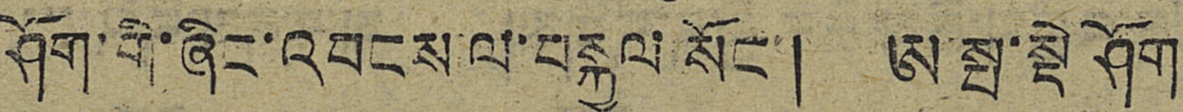ཤོག་གི་ཞིང་འབངས་ལ་བསྐྱལ སོང་། ཨ་སྤ་སྡེ ཤོག་
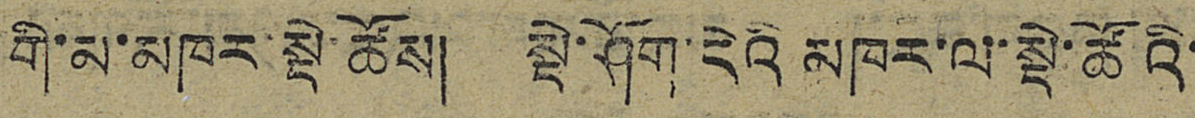གི་མ་མཁར་སྡེ་ཚོས། སྡེ་ཤོག་དེའི་མཁར་ལ་སྡེ་ཚོའི་
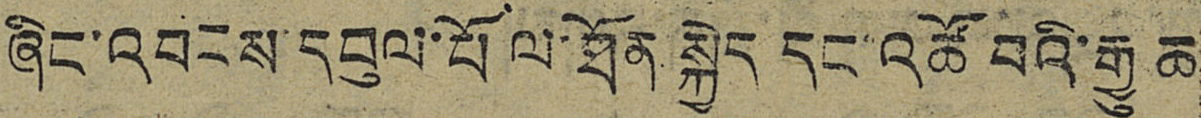ཞིང་འབངས་དབུལ་པོ ལ་ཐོན་སྐྱེད དང་འཚོ་བའི་རྒྱུ ཆ་
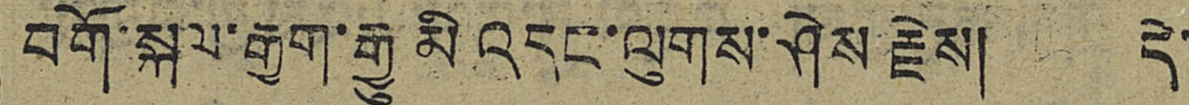བགོ་སྐལ་རྒྱག་རྒྱུ མི འདང་ལུགས་ཤེས རྗེས། དེ་
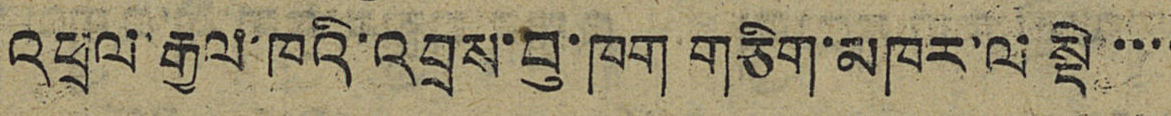འཕྲལ་རྒྱལ་ཁའི་འབྲས་བུ་ཁག གཅིག་མཁར་ལ་སྡེ་་་་
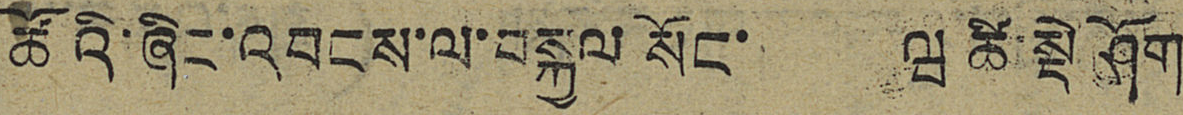ཚོའི་ཞིང་འབངས་ལ་བསྐྱལ སོང་ ཝ ཚི་སྡེ ཤོག
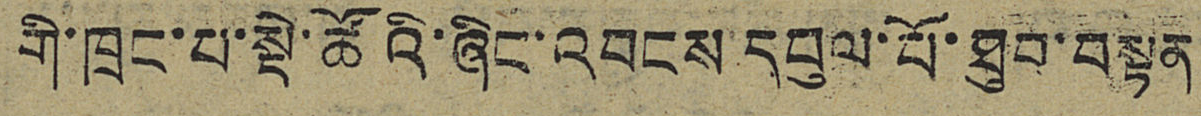གི་ཁྲང་པ་སྡེ་ཚོའི་ཞིང་འབངས དབུལ་པོ་ཐུབ་བསྟན
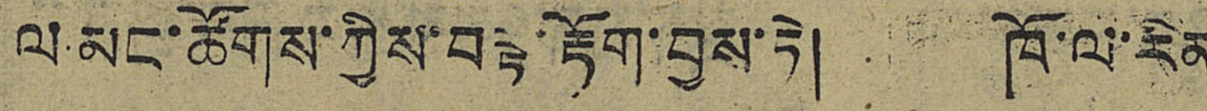ལ་མང་ཚོགས་ཀྱིས་བལྟ་རྟོག་བྱས་ཏེ། ཁོ་ལ་རིན
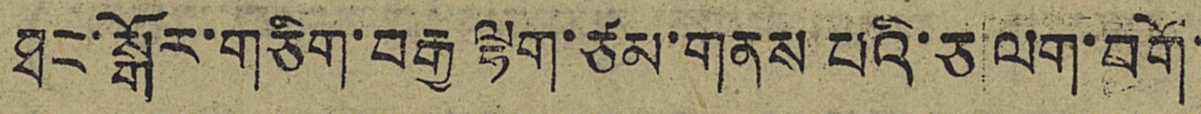ཐང་སྒོར་གཅིག་བརྒྱ ལྷག་ཙམ་གནས པའི་ཅ་ལག་བགོ་
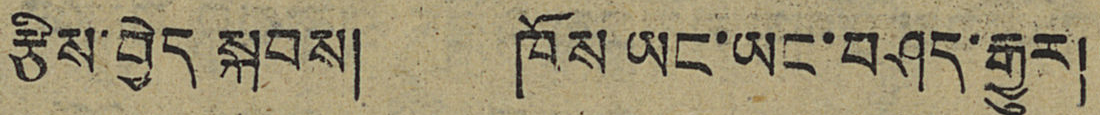རྩིས་བྱེད སྐབས། ཁོས ཡང་ཡང་བཤད་རྒྱུར།
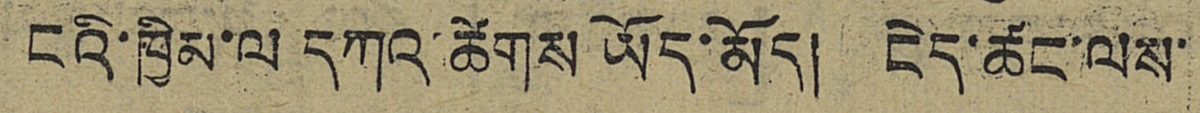「ངའི་ཁྱིམ་ལ དཀའ་ཚེགས ཡོད་མོད། ངེད་ཚང་ལས་
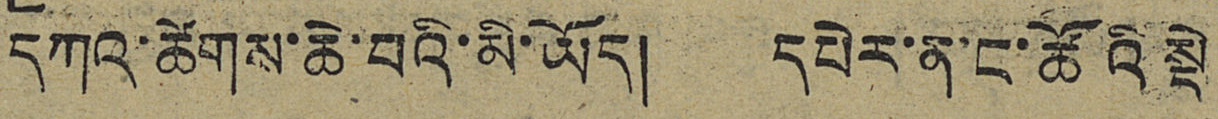དཀའ་ཚེགས་ཆེ་བའི་མི་ཡོད། དཔེར་ན་ང་ཚོའི སྡེ
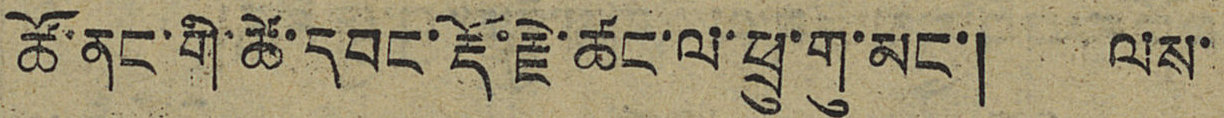ཚོ་ནང་གི་ཚེ་དབང་རྡོ་རྗེ་ཚང་ལ་ཕྲུ་གུ་མང་། ལས་
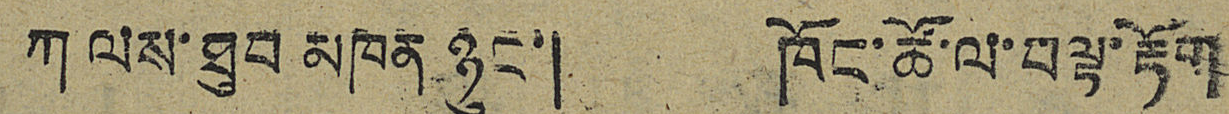ཀ ལས་ཐུབ མཁན ཉུང་། ཁོང་ཚོ་ལ་བལྟ་རྟོག
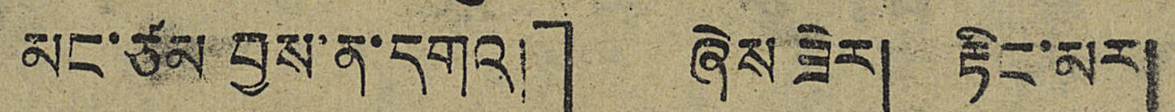མང་ཙམ བྱས་ན་དགའ།」 ཞེས་ཟེར། རྟིང་མར།
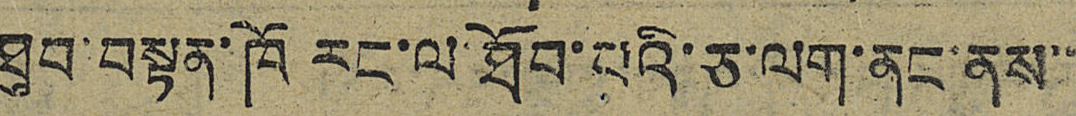ཐུབ་བསྟན་ཁོ རང་ལ་ཐོབ་པའི་ཅ་ལག་ནང་ནས་་
